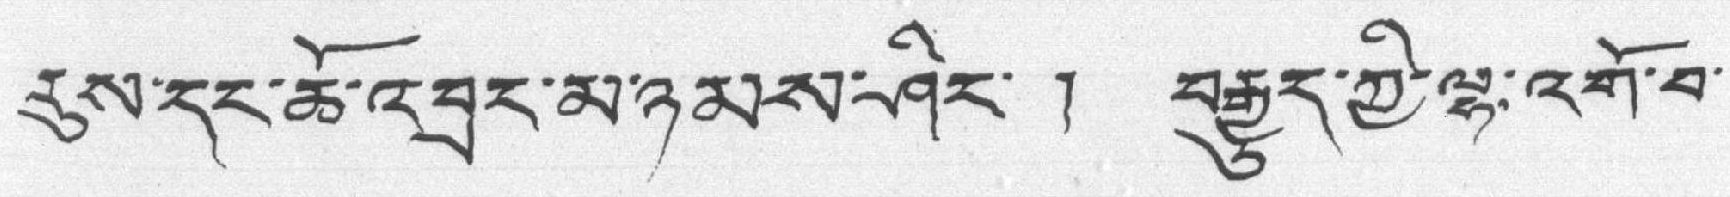རུས་དང་ཚོ་འབྲང་མཉམས་ཤིང་། བརྒྱུད་ཀྱི་ལྷ་འགོ་བ་
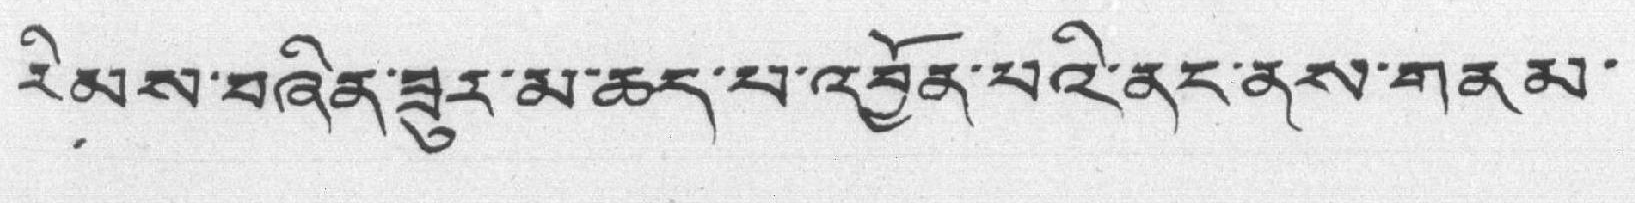རིམས་བཞིན་ཟུར་མ་ཆད་པ་འབྱོན་པའི་ནང་ནས་གནམ་
